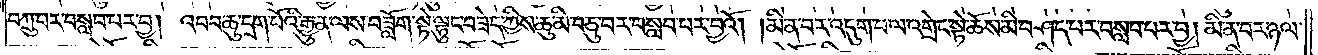བཀྲུ་བར་བསླབ་པར་བྱ། འབབ་ཆུ་དྲག་པོའི་རྒྱུན་ལས་བཟློག་སྟེ་ལྷུང་བཟེད་ཀྱིས་ཆུ་མི་བཅུ་བར་བསླབ་པར་བྱའོ། །མི་ན་བར་འདུག་པ་ལ་འགྲེང་སྟེ་ཆོས་མི་བཤད་པར་བསླབ་པར་བྱ། མི་ན་བར་ཉལ་
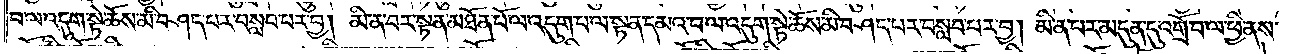བ་ལ་འདུག་སྟེ་ཆོས་མི་བཤད་པར་བསླབ་པར་བྱ། མི་ན་བར་སྟན་མཐོན་པོ་ལ་འདུག་པ་ལ་སྟན་དམའ་བ་ལ་འདུག་སྟེ་ཆོས་མི་བཤད་པར་བསླབ་པར་བྱ། མི་ན་བར་མདུན་དུ་འགྲོ་བ་ལ་ཕྱི་ནས་
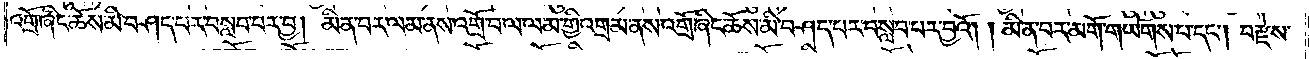འགྲོ་ཞིང་ཆོས་མི་བཤད་པར་བསླབ་པར་བྱ། མི་ན་བར་ལམ་ནས་འགྲོ་བ་ལམ་གྱི་འགྲམ་ནས་འགྲོ་ཞིང་ཆོས་མི་བཤད་པར་བསླབ་པར་བྱའོ། །མི་ན་བར་མགོ་གཡོགས་པ་དང༌། བརྫེས་
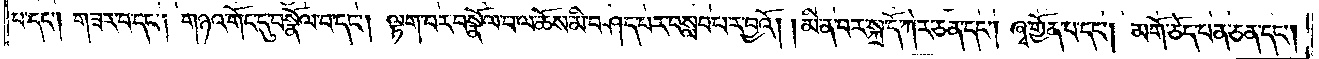པ་དང༌། གཟར་བ་དང༌། གཉའ་གོང་དུ་བསྣོལ་བ་དང༌། ལྟག་པར་བསྣོལ་བ་ལ་ཆོས་མི་བཤད་པར་བསླབ་པར་བྱའོ། །མི་ན་བར་སྐྲ་དོ་ཀེར་ཅན་དང༌། ཞྭ་གྱོན་པ་དང༌། མགོ་ཅོད་པན་ཅན་དང༌།
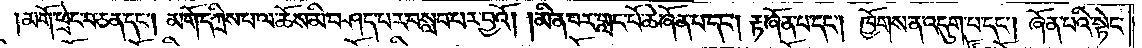མགོ་ཕྲེང་བ་ཅན་དང༌། མགོ་དཀྲིས་པ་ལ་ཆོས་མི་བཤད་པར་བསླབ་པར་བྱའོ། །མི་ན་བར་གླང་པོ་ཆེ་ཞོན་པ་དང༌། རྟ་ཞོན་པ་དང༌། ཁྱོགས་ན་འདུག་པ་དང༌། ཞོན་པའི་སྟེང་
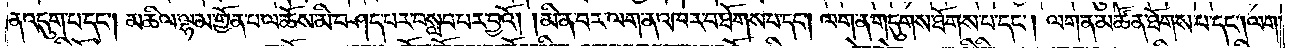ན་འདུག་པ་དང༌། མཆིལ་ལྷམ་གྱོན་པ་ལ་ཆོས་མི་བཤད་པར་བསླབ་པར་བྱའོ། །མི་ན་བར་ལག་ན་འཁར་བ་ཐོགས་པ་དང༌། ལག་ན་གདུགས་ཐོགས་པ་དང༌། ལག་ན་མཚོན་ཐོགས་པ་དང༌། ལག་
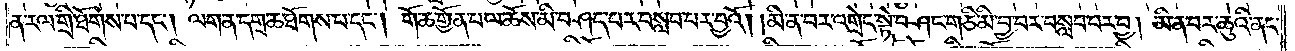ན་རལ་གྲི་ཐོགས་པ་དང༌། ལག་ན་དགྲ་ཆ་ཐོགས་པ་དང༌། གོ་ཆ་གྱོན་པ་ལ་ཆོས་མི་བཤད་པར་བསླབ་པར་བྱའོ། །མི་ན་བར་འགྲེང་སྟེ་བཤང་གཅི་མི་བྱ་བར་བསླབ་པར་བྱ། མི་ན་བར་ཆུའི་ནང་
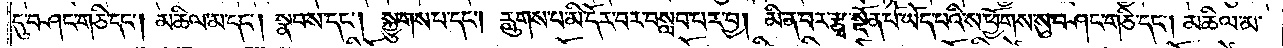དུ་བཤང་གཅི་དང༌། མཆིལ་མ་དང༌། སྣབས་དང༌། སྐྱུགས་པ་དང༌། རླུགས་པ་མི་དོར་བར་བསླབ་པར་བྱ། མི་ན་བར་རྩྭ་སྔོན་པོ་ཡོད་པའི་ས་ཕྱོགས་སུ་བཤང་གཅི་དང༌། མཆིལ་མ་
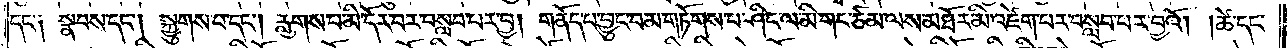དང་༑ སྣབས་དང༌། སྐྱུགས་པ་དང༌། རླུགས་པ་མི་དོར་བར་བསླབ་པར་བྱ། གནོད་པ་བྱུང་བ་མ་གཏོགས་པ་ཤིང་ལ་མི་གང་ཙམ་ལས་མཐོར་མི་འཛེག་པར་བསླབ་པར་བྱའོ། །ཚེ་དང་
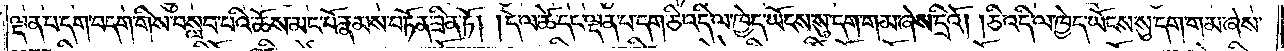ལྡན་པ་དག་བདག་གིས་བསླབ་པའི་ཆོས་མང་པོ་རྣམས་བཏོན་ཟིན་ཏོ། །དེ་ལ་ཚེ་དང་ལྡན་པ་དག་ཅི་འདི་ལ་ཁྱེད་ཡོངས་སུ་དག་གམ་ཞེས་དྲིའོ། །ཅི་འདི་ལ་ཁྱེད་ཡོངས་སུ་དག་གམ་ཞེས་
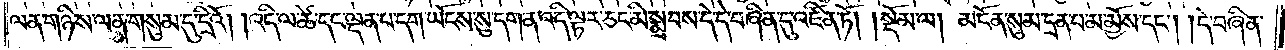ལན་གཉིས་ལན་གསུམ་དུ་དྲིའོ། །འདི་ལ་ཚེ་དང་ལྡན་པ་དག་ཡོངས་སུ་དག་ན་འདི་ལྟར་ཅང་མི་སྨྲ་བས་དེ་དེ་བཞིན་དུ་འཛིན་ཏོ།    །སྡོམ་ལ། མངོན་སུམ་དྲན་པ་མ་མྱོས་དང༌། །དེ་བཞིན་
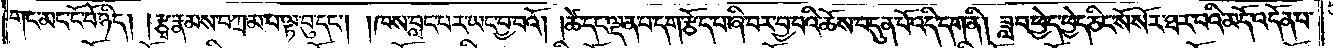གང་མང་ངོ་བོ་ཉིད། །རྩྭ་རྣམས་བཀྲམ་པ་ལྟ་བུ་དང༌། །ཁས་བླང་པར་ཡང་བྱ་བའོ། །ཚེ་དང་ལྡན་པ་དག་རྩོད་པ་ཞི་བར་བྱ་བའི་ཆོས་བདུན་པོ་འདི་དག་ནི། ཟླ་བ་ཕྱེད་ཕྱེད་ཅིང་སོ་སོར་ཐར་པའི་མདོ་འདོན་པ་
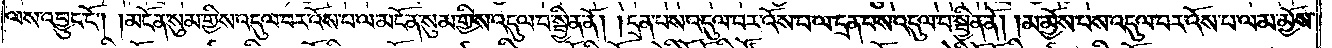ལས་འབྱུང་ངོ༌། །མངོན་སུམ་གྱིས་འདུལ་བར་འོས་པ་ལ་མངོན་སུམ་གྱིས་འདུལ་བ་སྦྱིན་ནོ། །དྲན་པས་འདུལ་བར་འོས་པ་ལ་དྲན་པས་འདུལ་བ་སྦྱིན་ནོ། །མ་མྱོས་པས་འདུལ་བར་འོས་པ་ལ་མ་མྱོས་
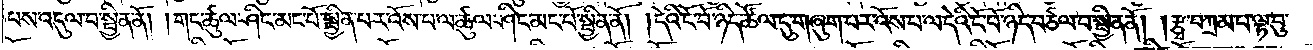པས་འདུལ་བ་སྦྱིན་ནོ། །གང་ཚུལ་ཤིང་མང་པོ་སྦྱིན་པར་འོས་པ་ལ་ཚུལ་ཤིང་མང་པོ་སྦྱིན་ནོ། །དེའི་ངོ་བོ་ཉིད་ཚོལ་དུ་གཞུག་པར་འོས་པ་ལ་དེའི་ངོ་བོ་ཉིད་བཙལ་བ་སྦྱིན་ནོ། །རྩྭ་བཀྲམ་པ་ལྟ་བུ་
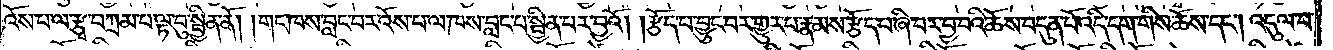འོས་པ་ལ་རྩྭ་བཀྲམ་པ་ལྟ་བུ་སྦྱིན་ནོ། །གང་ཁས་བླང་བར་འོས་པ་ལ་ཁས་བླང་པ་སྦྱིན་པར་བྱའོ། །རྩོད་པ་བྱུང་བར་གྱུར་པ་རྣམས་རྩོད་པ་ཞི་བར་བྱ་བའི་ཆོས་བདུན་པོ་འདི་དག་གིས་ཆོས་དང༌། འདུལ་བ་
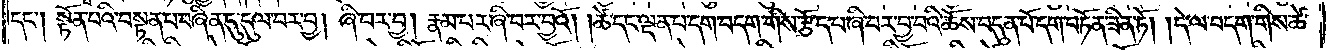དང༌། སྟོན་པའི་བསྟན་པ་བཞིན་དུ་དུལ་བར་བྱ། ཞི་བར་བྱ། རྣམ་པར་ཞི་བར་བྱའོ། །ཚེ་དང་ལྡན་པ་དག་བདག་གིས་རྩོད་པ་ཞི་བར་བྱ་བའི་ཆོས་བདུན་པོ་དག་བཏོན་ཟིན་ཏོ། །དེ་ལ་བདག་གིས་ཚེ་
